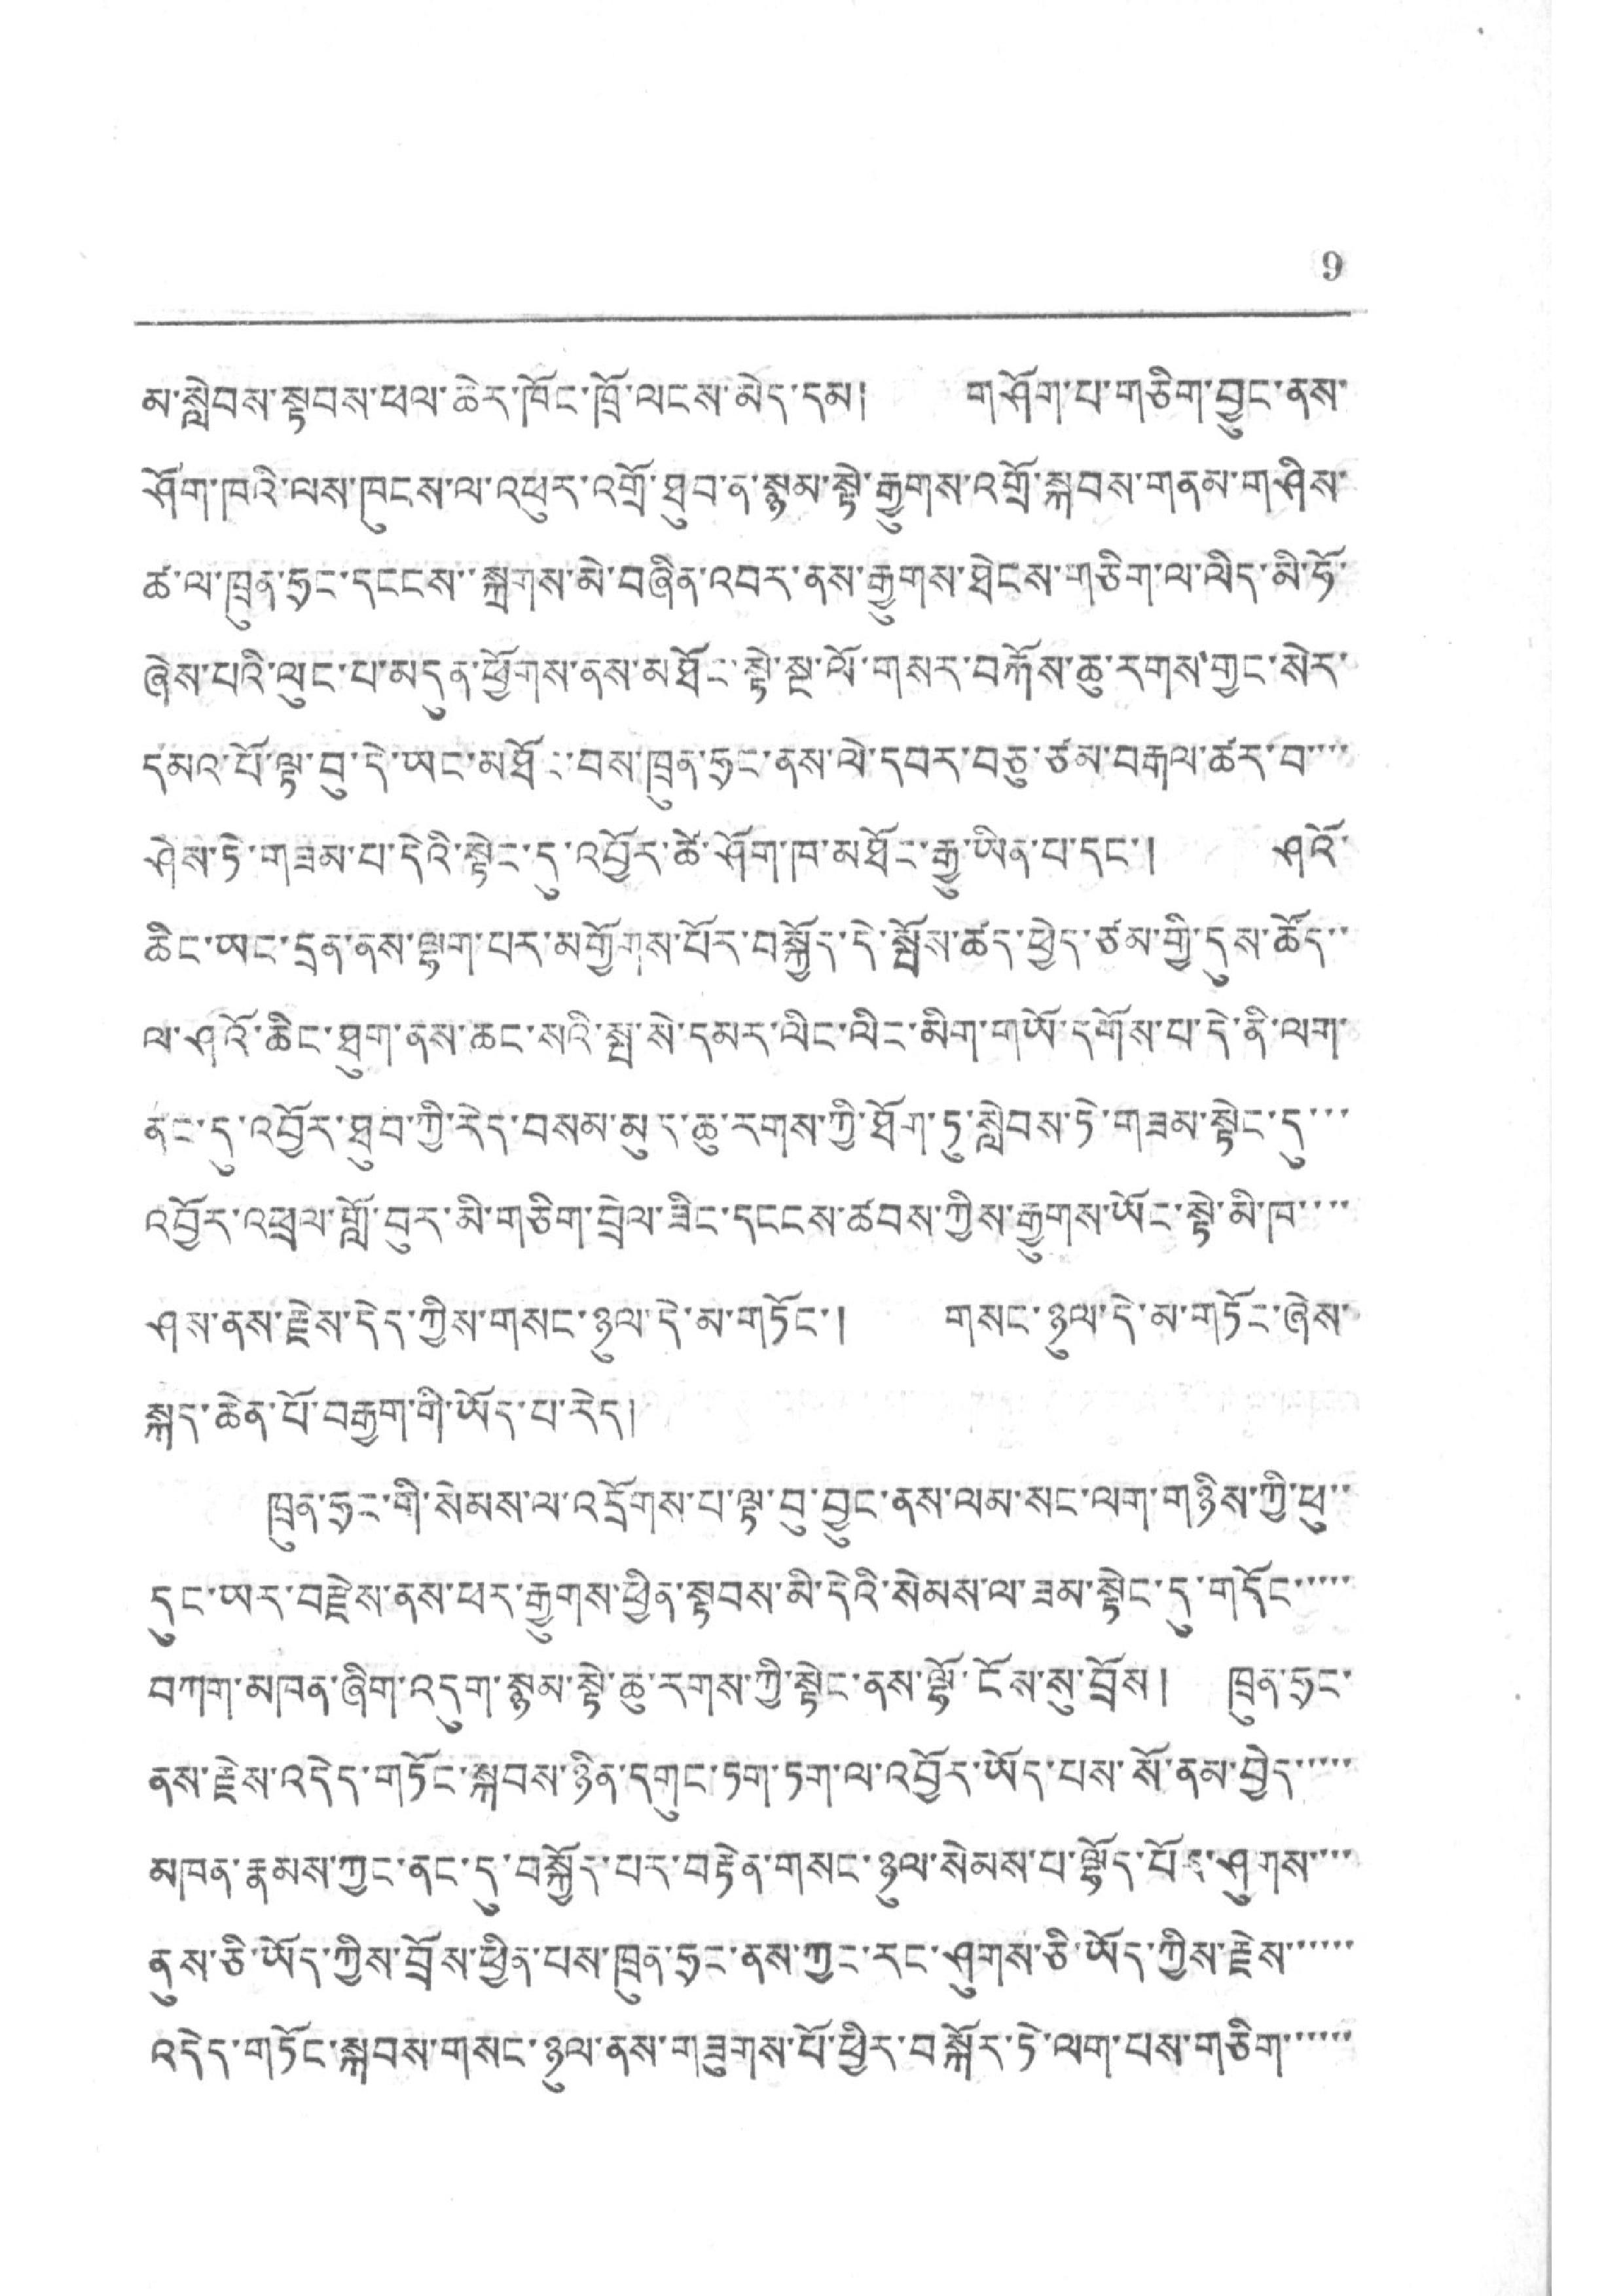9
མ་སླེབས་སྟབས་ཕལ་ཆེར་ཁོང་ཁྲོ་ལངས་མེད་དམ། གཤོག་པ་གཅིག་བྱུང་ནས་
ཤོག་ཁའི་ལས་ཁུངས་ལ་འཕུར་འགྲོ་ཐུབ་ན་སྙམ་སྟེ་རྒྱུགས་འགྲོ་སྐབས་གནམ་གཤིས་
ཚ་ལ་ཁྲུན་ཧྲང་དངངས་སྐྲགས་མེ་བཞིན་འབར་ནས་རྒྱུགས་ཐེངས་གཅིག་ལ་ལིད་མི་ཧོ་
ཞེས་པའི་ལུང་པ་མདུན་ཕྱོགས་ནས་མཐོང་སྟེ་སྔ་ལོ་གསར་བརྐོས་ཆུ་རགས་གྱང་སེར་
དམའ་པོ་ལྟ་བུ་དེ་ཡང་མཐོང་བས་ཁྲུན་ཧྲང་ནས་ལེ་དབར་བཅུ་ཙམ་བརྒལ་ཚར་བ་་་་
ཤེས་ཏེ་གཟམ་པ་དེའི་སྟེང་དུ་འབྱོར་ཚེ་ཤོག་ཁ་མཐོར་རྒྱུ་ཡིན་པ་དང་། ཤའོ་
ཆིང་ཡང་དྲན་ནས་ལྷག་པར་མགྱོགས་པོར་བསྐྱོར་དེ་སྤོས་ཚད་ཕྱེད་ཙམ་གྱི་དུས་ཚོད་་
ལ་ཤའོ་ཆིང་ཐུག་ནས་ཆང་སའི་སྤ་སེ་དམར་ལིང་ལིར་མིག་གཡོ་དགོས་པ་དེ་ནི་ལག་
ནང་དུ་འབྱོར་ཐུབ་ཀྱི་རེད་བསམ་མུད་ཆུ་རགས་ཀྱི་ཐོག་ཏུ་སླེབས་ཏེ་གཟམ་སྟེང་དུ་་་
འབྱོར་འཕྲལ་གློ་བུར་མི་གཅིག་བྲེལ་ཟིང་དངངས་ཚབས་ཀྱིས་རྒྱུགས་ཡོང་སྟེ་མི་ཁ་་་་
ཤས་ནས་རྗེས་དེད་ཀྱིས་གསང་ཉུལ་དེ་མ་གཏོང་། གསང་ཉུལ་དེ་མ་གཏོང་ཞེས་
སྐད་ཆེན་པོ་བརྒྱག་གི་ཡོད་པ་རེད།
ཁྲུན་ཧྲང་གི་སེམས་ལ་འདྲོགས་པ་ལྟ་བུ་བྱུང་ནས་ལམ་སང་ལག་གཉིས་ཀྱི་ཕུ་་
དུང་ཡར་བརྗེས་ནས་ཕར་རྒྱུགས་ཕྱིན་སྟབས་མི་དེའི་སེམས་ལ་ཟམ་སྟེང་དུ་གདོང་་་་་
བཀག་མཁན་ཞིག་འདུག་སྙམ་སྟེ་ཆུ་རགས་ཀྱི་སྟེང་ནས་ལྷོ་ངོས་སུ་བྲོས། ཁྲུན་ཧྲང་
ནས་རྗེས་འདེད་གཏོང་སྐབས་ཉིན་དགུང་ཏག་ཏག་ལ་འབྱོར་ཡོད་པས་སོ་ནམ་བྱེད་་་་་
མཁན་རྣམས་ཀྱང་ནང་དུ་བསྐྱོད་པར་བརྟེན་གསང་ཉུལ་སེམས་པ་ལྷོད་པོར་ཤུགས་་་་
ནུས་ཅི་ཡོད་ཀྱིས་བྲོས་ཕྱིན་པས་ཁྲུན་ཧྲང་ནས་ཀྱང་རང་ཤུགས་ཅི་ཡོད་ཀྱིས་རྗེས་་་་་་
འདེད་གཏོང་སྐབས་གསང་ཉུལ་ནས་གཟུགས་པོ་ཕྱིར་བསྐོར་ཏེ་ལག་པས་གཅིག་་་་་་
